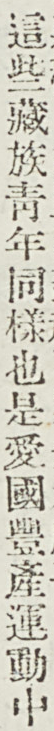這些藏族靑年同樣也是愛國豐產運動中
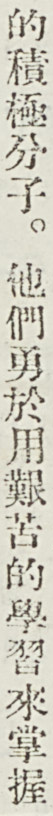的積極分子。他們勇於用艱苦的學習來掌握
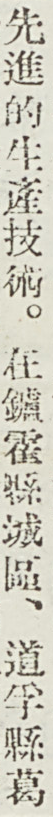先進的生產技術。在鑪霍縣城區、道孚縣葛
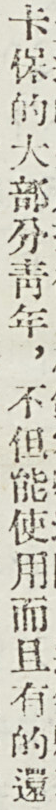卡保的大部分靑年，不但能使用而且有的還
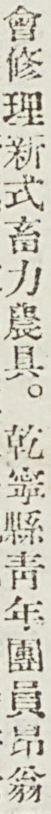會修理新式畜力農具。乾孃先靑年團員昂翁
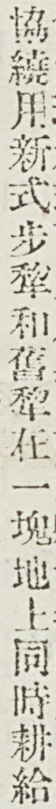協繞用新式步犂和舊犂在一塊地上同時耕給
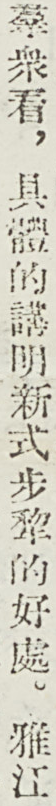羣衆看，具體的講明新式步犂的好處。雅江
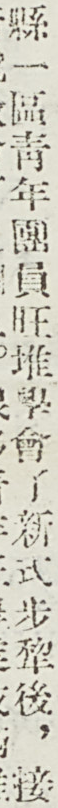縣一區靑年團員旺堆學會了新式步犂後，接
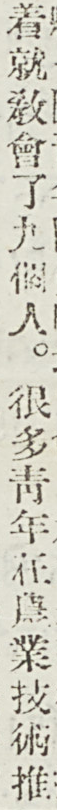着就敎會了九個人。很多靑年在農業技術推
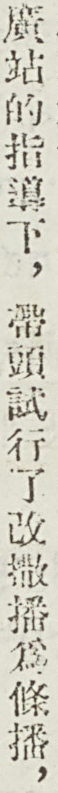廣站的指導下，帶頭試行了改撒播爲條播，
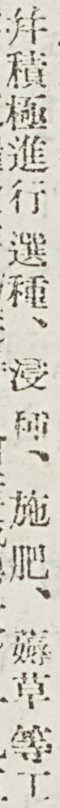並積極進行選種、浸種、施肥、薅草等工
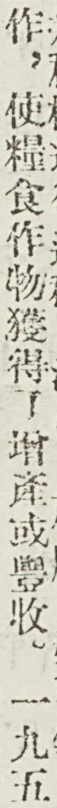作，使糧食作物獲得了增產或豐收。一九五
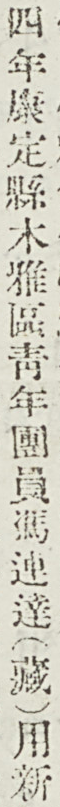四年康定縣木雅區靑年團員馬連達（藏）用新
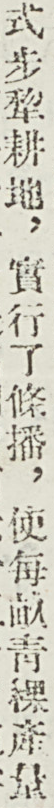式步犂耕地，試行了條播，使每畝靑稞產量
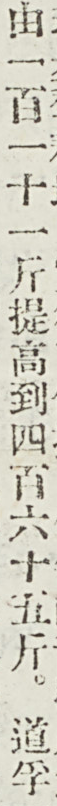由一百一十一斤提高到四百六十五斤。道孚
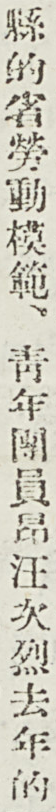縣的省勞動模範、靑年團員昂汪次烈去年的
